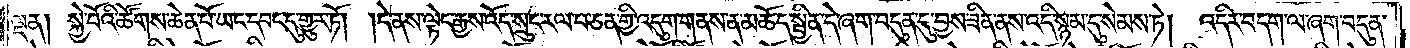ལྡན། སྐྱེ་བོའི་ཚོགས་ཆེན་པོ་ཡང་དབང་དུ་གྱུར་ཏོ། །དེ་ནས་ལྟེང་རྒྱས་འོད་སྲུང་རལ་པ་ཅན་གྱི་འདུག་གནས་ན་མཆོད་སྦྱིན་དེ་ཞག་བདུན་དུ་བྱས་ཟིན་ནས་འདི་སྙམ་དུ་སེམས་ཏེ། འདིར་བདག་ལ་ཞག་བདུན་
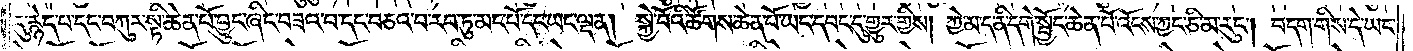དུ་རྙེད་པ་དང་བཀུར་སྟི་ཆེན་པོ་བྱུང་ཞིང་བཟའ་བ་དང་བཅའ་བ་རབ་ཏུ་མང་པོ་དང་ཡང་ལྡན། སྐྱེ་བོའི་ཚོགས་ཆེན་པོ་ཡང་དབང་དུ་གྱུར་གྱིས། ཀྱེ་མ་ད་ནི་དགེ་སྦྱོང་ཆེན་པོ་འོངས་ཀྱང་ཅི་མ་རུང༌། བདག་གིས་དེ་ཡང་
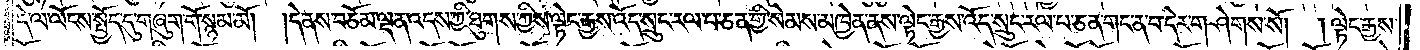དེ་ལ་ལོངས་སྤྱོད་དུ་གཞུག་གོ་སྙམ་མོ། །དེ་ནས་བཅོམ་ལྡན་འདས་ཀྱི་ཐུགས་ཀྱིས་ལྟེང་རྒྱས་འོད་སྲུང་རལ་པ་ཅན་གྱི་སེམས་མཁྱེན་ནས་ལྟེང་རྒྱས་འོད་སྲུང་རལ་པ་ཅན་གང་ན་བ་དེར་གཤེགས་སོ། །ལྟེང་རྒྱས་
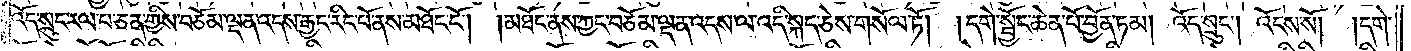འོད་སྲུང་རལ་པ་ཅན་གྱིས་བཅོམ་ལྡན་འདས་རྒྱང་རིང་པོ་ནས་མཐོང་ངོ༌། །མཐོང་ནས་ཀྱང་བཅོམ་ལྡན་འདས་ལ་འདི་སྐད་ཅེས་གསོལ་ཏོ། །དགེ་སྦྱོང་ཆེན་པོ་བྱོན་ཏམ། འོད་སྲུང༌། འོངས་སོ། །དགེ་
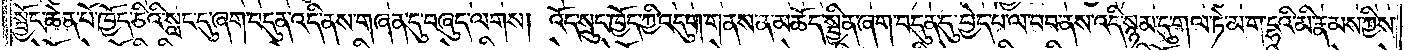སྦྱོང་ཆེན་པོ་ཁྱོད་ཅིའི་སླང་དུ་ཞག་བདུན་འདི་ནས་གཞན་དུ་བཞུད་ལགས། འོད་སྲུང་ཁྱོད་ཀྱི་འདུག་གནས་ན་མཆོད་སྦྱིན་ཞག་བདུན་དུ་བྱེད་པ་ལ་བབ་ནས་འདི་སྙམ་དུ་གལ་ཏེ་མ་ག་དྷའི་མི་རྣམས་ཀྱིས་
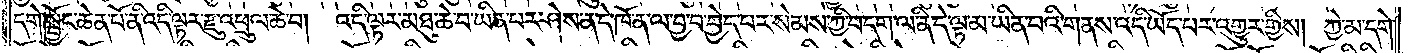དགེ་སྦྱོང་ཆེན་པོ་ནི་འདི་ལྟར་རྫུ་འཕྲུལ་ཆེ་བ། འདི་ལྟར་མཐུ་ཆེ་བ་ཡིན་པར་ཤེས་ན་དེ་ཁོ་ན་ལ་བྱ་བ་བྱེད་པར་སེམས་ཀྱི་བདག་ལ་ནི་དེ་ལྟ་མ་ཡིན་པའི་གནས་འདི་ཡོད་པར་འགྱུར་གྱིས། ཀྱེ་མ་དགེ་
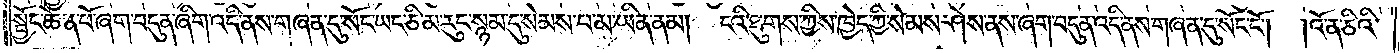སྦྱོང་ཆེན་པོ་ཞག་བདུན་ཞིག་འདི་ནས་གཞན་དུ་སོང་ཡང་ཅི་མ་རུང་སྙམ་དུ་སེམས་པ་མ་ཡིན་ནམ། ངའི་ཐུགས་ཀྱིས་ཁྱེད་ཀྱི་སེམས་ཤེས་ནས་ཞག་བདུན་འདི་ནས་གཞན་དུ་སོང་ངོ༌།  །འོ་ན་ཅིའི་
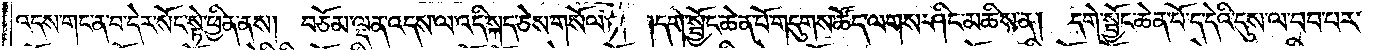འདས་གང་ན་བ་དེར་སོང་སྟེ་ཕྱིན་ནས། བཅོམ་ལྡན་འདས་ལ་འདི་སྐད་ཅེས་གསོལ་ཏོ། །དགེ་སྦྱོང་ཆེན་པོ་གདུགས་ཚོད་ལགས་ཤིང་མཆིས་ན། དགེ་སྦྱོང་ཆེན་པོ་ད་དེའི་དུས་ལ་བབ་པར་
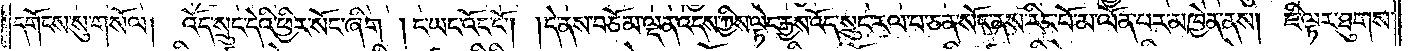དགོངས་སུ་གསོལ། འོད་སྲུང་དེའི་ཕྱིར་སོང་ཞིག །ང་ཡང་འོང་ངོ༌། །དེ་ནས་བཅོམ་ལྡན་འདས་ཀྱིས་ལྟེང་རྒྱས་འོད་སྲུང་རལ་པ་ཅན་སོང་ནས་རིང་པོ་མ་ལོན་པར་མཁྱེན་ནས། ཇི་ལྟར་ཐུགས་
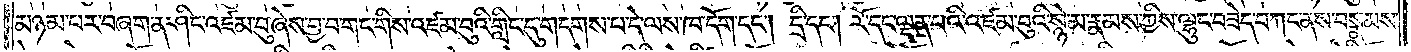མཉམ་པར་བཞག་ན་ཤིང་འཛམ་བུ་ཞེས་བྱ་བ་གང་གིས་འཛམ་བུའི་གླིང་དུ་གདགས་པ་དེ་ལས་ཁ་དོག་དང༌། དྲི་དང༌། རོ་དང་ལྡན་པའི་འཛམ་བུའི་སྙེ་མ་རྣམས་ཀྱིས་ལྷུང་བཟེད་བཀང་ནས་བསྣམས་
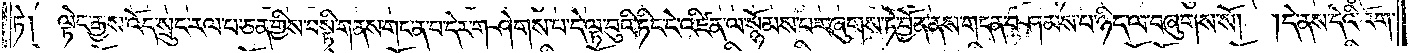ཏེ། ལྟེང་རྒྱས་འོད་སྲུང་རལ་པ་ཅན་གྱིས་བསྟི་གནས་གང་ན་བ་དེར་གཤེགས་པ་དེ་ལྟ་བུའི་ཏིང་ངེ་འཛིན་ལ་སྙོམས་པར་ཞུགས་ཏེ་བྱོན་ནས་གདན་བཤམས་པ་ཉིད་ལ་བཞུགས་སོ། །དེ་ནས་དེའི་འོག་
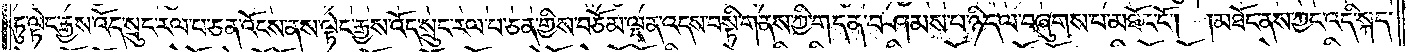ཏུ་ལྟེང་རྒྱས་འོད་སྲུང་རལ་པ་ཅན་འོངས་ནས་ལྟེང་རྒྱས་འོད་སྲུང་རལ་པ་ཅན་གྱིས་བཅོམ་ལྡན་འདས་བསྟི་གནས་ཀྱི་གདན་བཤམས་པ་ཉིད་ལ་བཞུགས་པ་མཐོང་ངོ༌། །མཐོང་ནས་ཀྱང་འདི་སྐད་
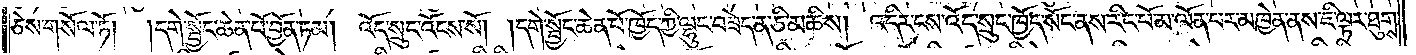ཅེས་གསོལ་ཏོ། །དགེ་སྦྱོང་ཆེན་པོ་བྱོན་ཏམ། འོད་སྲུང་འོངས་སོ། །དགེ་སྦྱོང་ཆེན་པོ་ཁྱོད་ཀྱི་ལྷུང་བཟེད་ན་ཅི་མཆིས། འདིར་ངས་འོད་སྲུང་ཁྱོད་སོང་ནས་རིང་པོ་མ་ལོན་པར་མཁྱེན་ནས་ཇི་ལྟར་ཐུགས་
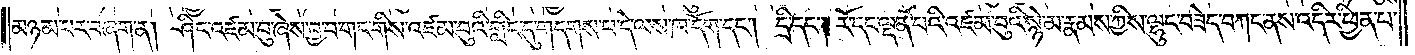མཉམ་པར་བཞག་ན། ཤིང་འཛམ་བུ་ཞེས་བྱ་བ་གང་གིས་འཛམ་བུའི་གླིང་དུ་གདགས་པ་དེ་ལས་ཁ་དོག་དང༌། དྲི་དང༌། རོ་དང་ལྡན་པའི་འཛམ་བུའི་སྙེ་མ་རྣམས་ཀྱིས་ལྷུང་བཟེད་བཀང་ནས་འདིར་ཕྱིན་པ་
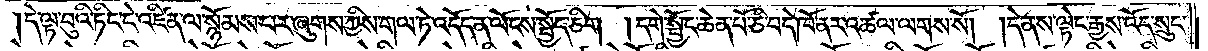དེ་ལྟ་བུའི་ཏིང་ངེ་འཛིན་ལ་སྙོམས་པར་ཞུགས་ཀྱིས་གལ་ཏེ་འདོད་ན་ལོངས་སྤྱོད་ཅིག །དགེ་སྦྱོང་ཆེན་པོ་ཅི་བདེ་ཁོ་ནར་འཚལ་ལགས་སོ། །དེ་ནས་ལྟེང་རྒྱས་འོད་སྲུང་
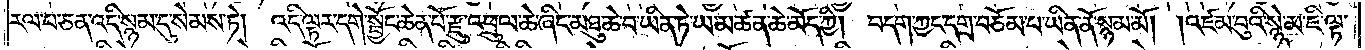རལ་པ་ཅན་འདི་སྙམ་དུ་སེམས་ཏེ། འདི་ལྟར་དགེ་སྦྱོང་ཆེན་པོ་རྫུ་འཕྲུལ་ཆེ་ཞིང་མཐུ་ཆེ་བ་ཡིན་ཏེ་ཡ་མཚན་ཆེ་མོད་ཀྱི། བདག་ཀྱང་དགྲ་བཅོམ་པ་ཡིན་ནོ་སྙམ་མོ། །འཛམ་བུའི་སྙེ་མ་ཇི་ལྟ་
